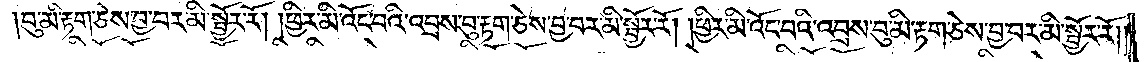བུ་མི་རྟག་ཅེས་བྱ་བར་མི་སྦྱོར་རོ། །ཕྱིར་མི་འོང་བའི་འབྲས་བུ་རྟག་ཅེས་བྱ་བར་མི་སྦྱོར་རོ། །ཕྱིར་མི་འོང་བའི་འབྲས་བུ་མི་རྟག་ཅེས་བྱ་བར་མི་སྦྱོར་རོ༎
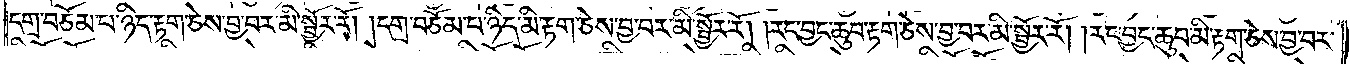དགྲ་བཅོམ་པ་ཉིད་རྟག་ཅེས་བྱ་བར་མི་སྦྱོར་རོ། །དགྲ་བཅོམ་པ་ཉིད་མི་རྟག་ཅེས་བྱ་བར་མི་སྦྱོར་རོ། །རང་བྱང་ཆུབ་རྟག་ཅེས་བྱ་བར་མི་སྦྱོར་རོ། །རང་བྱང་ཆུབ་མི་རྟག་ཅེས་བྱ་བར་
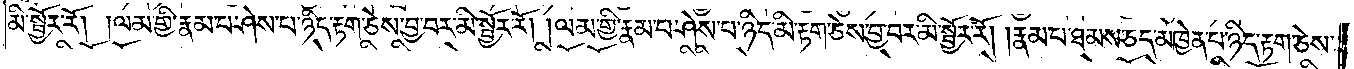མི་སྦྱོར་རོ། །ལམ་གྱི་རྣམ་པ་ཤེས་པ་ཉིད་རྟག་ཅེས་བྱ་བར་མི་སྦྱོར་རོ། །ལམ་གྱི་རྣམ་པ་ཤེས་པ་ཉིད་མི་རྟག་ཅེས་བྱ་བར་མི་སྦྱོར་རོ། །རྣམ་པ་ཐམས་ཅད་མཁྱེན་པ་ཉིད་རྟག་ཅེས་
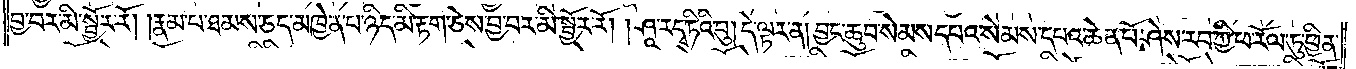བྱ་བར་མི་སྦྱོར་རོ། །རྣམ་པ་ཐམས་ཅད་མཁྱེན་པ་ཉིད་མི་རྟག་ཅེས་བྱ་བར་མི་སྦྱོར་རོ། །ཤཱ་རདྭ་ཏིའི་བུ། དེ་ལྟར་ན། བྱང་ཆུབ་སེམས་དཔའ་སེམས་དཔའ་ཆེན་པོ་ཤེས་རབ་ཀྱི་ཕ་རོལ་ཏུ་ཕྱིན་
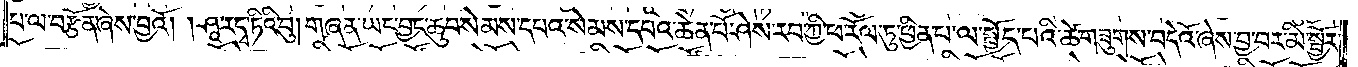པ་ལ་བརྩོན་ཞེས་བྱའོ། །ཤཱ་ར་དྭ་ཏིའི་བུ། གཞན་ཡང་བྱང་ཆུབ་སེམས་དཔའ་སེམས་དཔའ་ཆེན་པོ་ཤེས་རབ་ཀྱི་ཕ་རོལ་ཏུ་ཕྱིན་པ་ལ་སྤྱོད་པའི་ཚེ་གཟུགས་བདེའོ་ཞེས་བྱ་བར་མི་སྦྱོར་
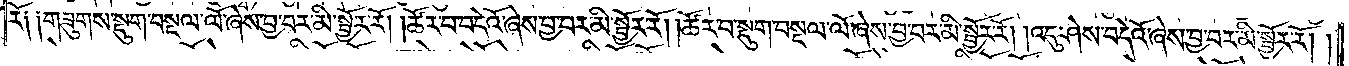རོ༑ ༑གཟུགས་སྡུག་བསྔལ་ལོ་ཞེས་བྱ་བར་མི་སྦྱོར་རོ། །ཚོར་བ་བདེའོ་ཞེས་བྱ་བར་མི་སྦྱོར་རོ། །ཚོར་བ་སྡུག་བསྔལ་ལོ་ཞེས་བྱ་བར་མི་སྦྱོར་རོ། །འདུ་ཤེས་བདེའོ་ཞེས་བྱ་བར་མི་སྦྱོར་རོ། །
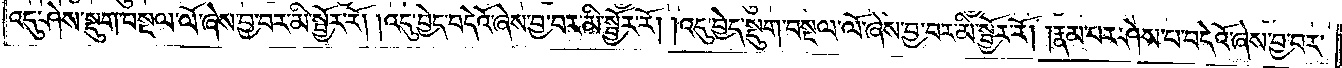འདུ་ཤེས་སྡུག་བསྔལ་ལོ་ཞེས་བྱ་བར་མི་སྦྱོར་རོ། །འདུ་བྱེད་བདེའོ་ཞེས་བྱ་བར་མི་སྦྱོར་རོ། །འདུ་བྱེད་སྡུག་བསྔལ་ལོ་ཞེས་བྱ་བར་མི་སྦྱོར་རོ། །རྣམ་པར་ཤེས་པ་བདེའོ་ཞེས་བྱ་བར་
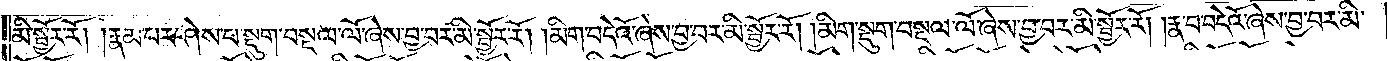མི་སྦྱོར་རོ། །རྣམ་པར་ཤེས་པ་སྡུག་བསྔལ་ལོ་ཞེས་བྱ་བར་མི་སྦྱོར་རོ། །མིག་བདེའོ་ཞེས་བྱ་བར་མི་སྦྱོར་རོ། །མིག་སྡུག་བསྔལ་ལོ་ཞེས་བྱ་བར་མི་སྦྱོར་རོ། །རྣ་བ་བདེའོ་ཞེས་བྱ་བར་མི་
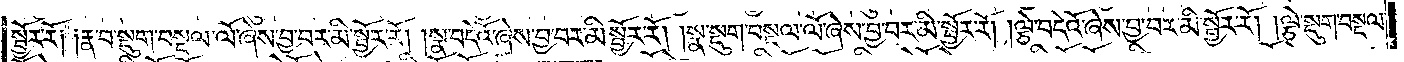སྦྱོར་རོ༑ ༑རྣ་བ་སྡུག་བསྔལ་ལོ་ཞེས་བྱ་བར་མི་སྦྱོར་རོ། །སྣ་བདེའོ་ཞེས་བྱ་བར་མི་སྦྱོར་རོ། །སྣ་སྡུག་བསྔལ་ལོ་ཞེས་བྱ་བར་མི་སྦྱོར་རོ། །ལྕེ་བདེའོ་ཞེས་བྱ་བར་མི་སྦྱོར་རོ། །ལྕེ་སྡུག་བསྔལ་
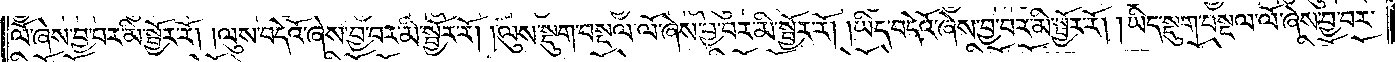ལོ་ཞེས་བྱ་བར་མི་སྦྱོར་རོ། །ལུས་བདེའོ་ཞེས་བྱ་བར་མི་སྦྱོར་རོ། །ལུས་སྡུག་བསྔལ་ལོ་ཞེས་བྱ་བར་མི་སྦྱོར་རོ། །ཡིད་བདེའོ་ཞེས་བྱ་བར་མི་སྦྱོར་རོ། །ཡིད་སྡུག་བསྔལ་ལོ་ཞེས་བྱ་བར་
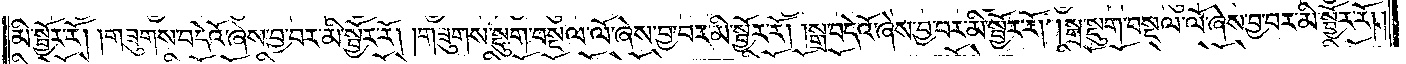མི་སྦྱོར་རོ། །གཟུགས་བདེའོ་ཞེས་བྱ་བར་མི་སྦྱོར་རོ། །གཟུགས་སྡུག་བསྔལ་ལོ་ཞེས་བྱ་བར་མི་སྦྱོར་རོ། །སྒྲ་བདེའོ་ཞེས་བྱ་བར་མི་སྦྱོར་རོ། །སྒྲ་སྡུག་བསྔལ་ལོ་ཞེས་བྱ་བར་མི་སྦྱོར་རོ། །
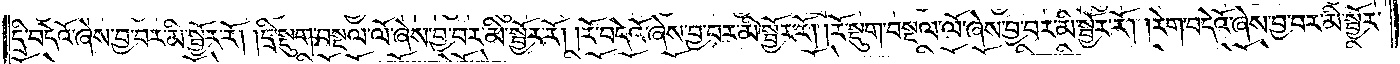དྲི་བདེའོ་ཞེས་བྱ་བར་མི་སྦྱོར་རོ། །དྲི་སྡུག་བསྔལ་ལོ་ཞེས་བྱ་བར་མི་སྦྱོར་རོ། །རོ་བདེའོ་ཞེས་བྱ་བར་མི་སྦྱོར་རོ། །རོ་སྡུག་བསྔལ་ལོ་ཞེས་བྱ་བར་མི་སྦྱོར་རོ། །རེག་བདེའོ་ཞེས་བྱ་བར་མི་སྦྱོར་
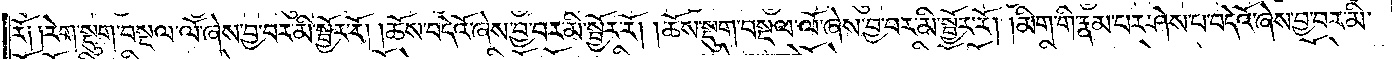རོ༑ ༑རེག་སྡུག་བསྔལ་ལོ་ཞེས་བྱ་བར་མི་སྦྱོར་རོ། །ཆོས་བདེའོ་ཞེས་བྱ་བར་མི་སྦྱོར་རོ། །ཆོས་སྡུག་བསྔལ་ལོ་ཞེས་བྱ་བར་མི་སྦྱོར་རོ། །མིག་གི་རྣམ་པར་ཤེས་པ་བདེའོ་ཞེས་བྱ་བར་མི་
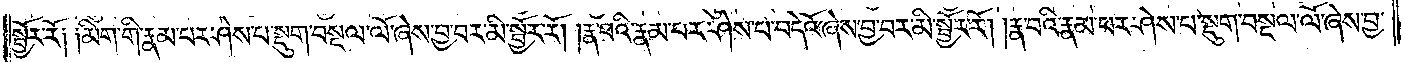སྦྱོར་རོ༑ ༑མིག་གི་རྣམ་པར་ཤེས་པ་སྡུག་བསྔལ་ལོ་ཞེས་བྱ་བར་མི་སྦྱོར་རོ། །རྣ་བའི་རྣམ་པར་ཤེས་པ་བདེའོ་ཞེས་བྱ་བར་མི་སྦྱོར་རོ། །རྣ་བའི་རྣམ་པར་ཤེས་པ་སྡུག་བསྔལ་ལོ་ཞེས་བྱ་
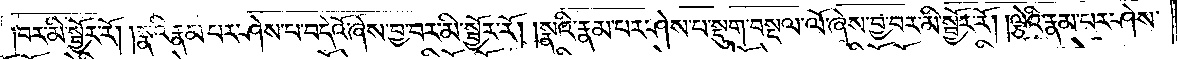བར་མི་སྦྱོར་རོ། །སྣའི་རྣམ་པར་ཤེས་པ་བདེའོ་ཞེས་བྱ་བར་མི་སྦྱོར་རོ། །སྣའི་རྣམ་པར་ཤེས་པ་སྡུག་བསྔལ་ལོ་ཞེས་བྱ་བར་མི་སྦྱོར་རོ། །ལྕེའི་རྣམ་པར་ཤེས་
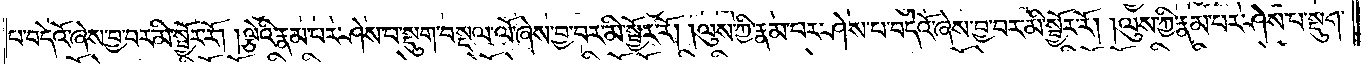པ་བདེའོ་ཞེས་བྱ་བར་མི་སྦྱོར་རོ། །ལྕེའི་རྣམ་པར་ཤེས་པ་སྡུག་བསྔལ་ལོ་ཞེས་བྱ་བར་མི་སྦྱོར་རོ། །ལུས་ཀྱི་རྣམ་པར་ཤེས་པ་བདེའོ་ཞེས་བྱ་བར་མི་སྦྱོར་རོ། །ལུས་ཀྱི་རྣམ་པར་ཤེས་པ་སྡུག་
